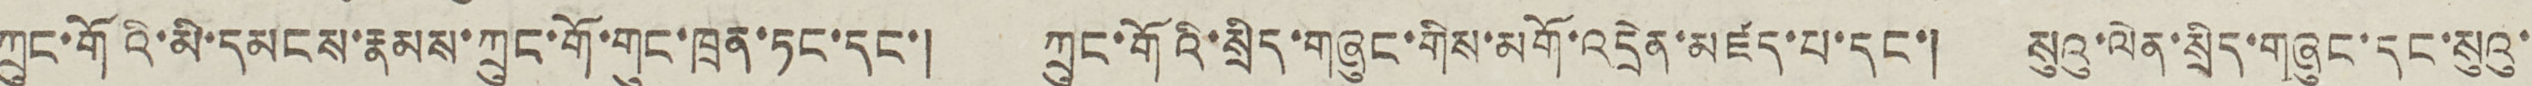ཀྲུང་གོའི་མི་དམངས་རྣམས་ཀྲུང་གོ་གུང་ཁྲན་ཏང་དང་། ཀྲུང་གོའི་སྲིད་གཞུང་གིས་མགོ་འདྲེན་མཛད་པ་དང་། སུའུ་ལེན་སྲིད་གཞུང་དང་སུའུ་
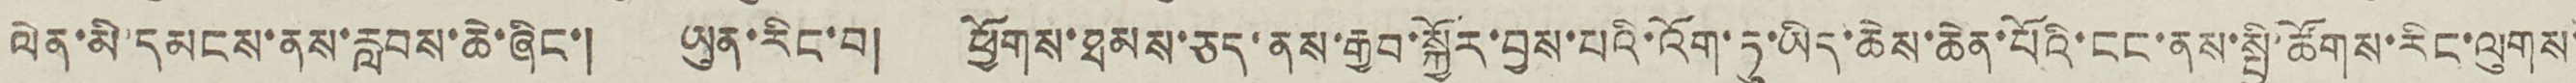ལེན་མི་དམངས་ནས་རླབས་ཆེ་ཞིང་། ཡུན་རིང་བ། ཕྱོགས་ཐམས་ཅད་ནས་རྒྱབ་སྐྱོར་བྱས་པའི་འོག་ཏུ་ཡོད་ཆེས་ཆེན་པོའི་ངང་ནས་སྤྱི་ཚོགས་རིང་ལུགས་
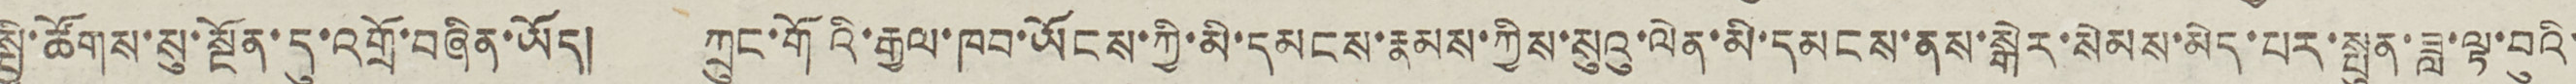སྤྱི་ཚོགས་སུ་སྔོན་དུ་འགྲོ་བཞིན་ཡོད། ཀྲུང་གོའི་རྒྱལ་ཁབ་ཡོངས་ཀྱི་མི་དམངས་རྣམས་ཀྱིས་སུའུ་ལེན་མི་དམངས་ནས་སྒེར་སེམས་མེད་པར་སྤུན་ཟླ་ལྟ་བུའི་
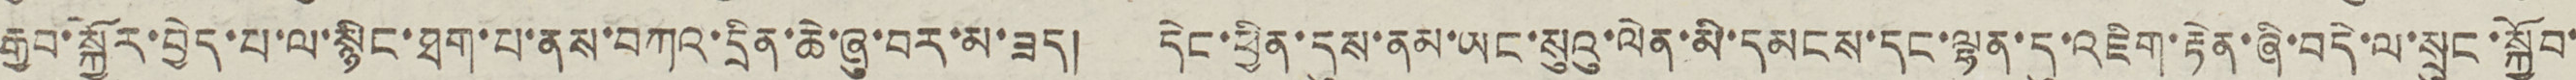རྒྱབ་སྐྱོར་བྱེད་པ་ལ་སྙིང་ཐག་པ་ནས་བཀའ་དྲིན་ཆེ་ཞུ་བར་མ་ཟད། དེང་ཕྱིན་དུས་ནམ་ཡང་སུའུ་ལེན་མི་དམངས་དང་ལྷན་དུ་འཇིག་རྟེན་ཞི་བདེ་ལ་སྲུང་སྐྱོབ་
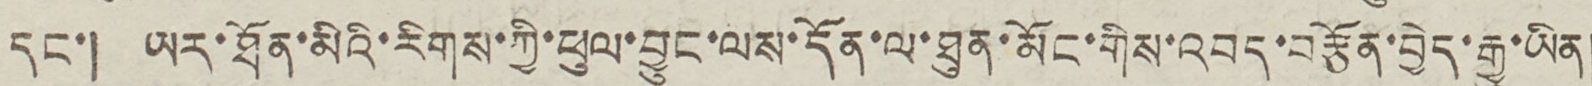དང་། ཡར་ཐོན་མིའི་རིགས་ཀྱི་ཕུལ་བྱུང་ལས་དོན་ལ་ཐུན་མོང་གིས་འབད་བརྩོན་བྱེད་རྒྱུ་ཡིན།
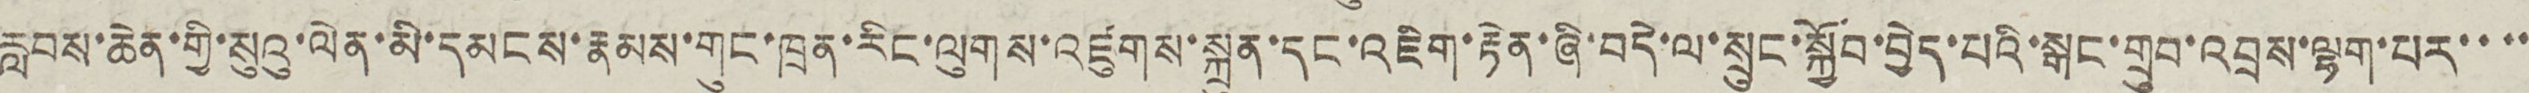རླབས་ཆེན་གྱི་སུའུ་ལེན་མི་དམངས་རྣམས་གུང་ཁྲན་རིང་ལུགས་འཛུགས་སྐྲུན་དང་འཇིག་རྟེན་ཞི་བདེ་ལ་སྲུང་སྐྱོབ་བྱེད་པའི་སྒང་གྲུབ་འབྲས་ལྷག་པར་་་་
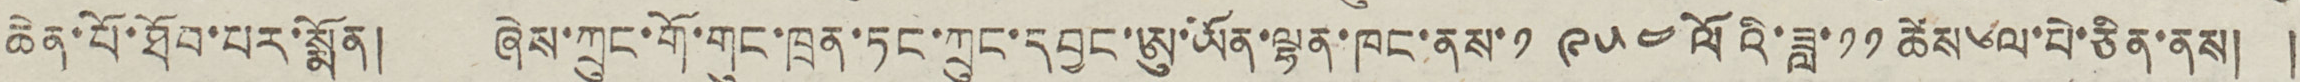ཆེན་པོ་ཐོབ་པར་སྨོན། ཞེས་ཀྲུང་གོ་གུང་ཁྲན་ཏང་ཀྲུང་དབྱང་ཨུ་ཡོན་ལྷན་ཁང་ནས་༡ ༩ ༥ ༤ ལོའི་ཟླ་༡༡ ཚེས༦ལ་པེ་ཅིན་ནས། །
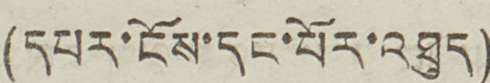(དཔར་ངོས་དང་པོར་འཐུད)
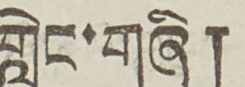གླེང་གཞི།
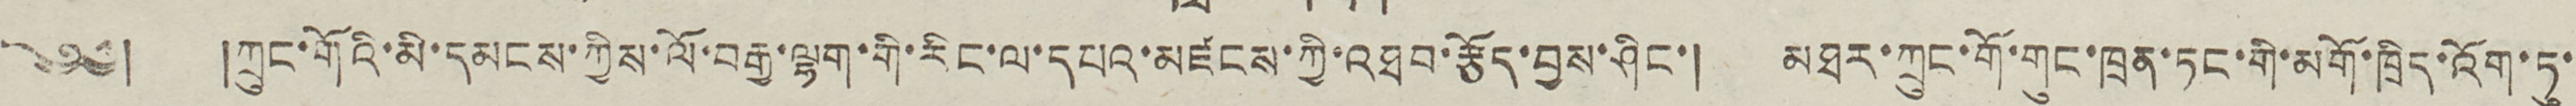༄༅། །ཀྲུང་གོའི་མི་དམངས་ཀྱིས་ལོ་བརྒྱ་ལྷག་གི་རིང་ལ་དཔའ་མཛངས་ཀྱི་འཐབ་རྩོད་བྱས་ཤིང་། མཐར་ཀྲུང་གོ་གུང་ཁྲན་ཏང་གི་མགོ་ཁྲིད་འོག་ཏུ་
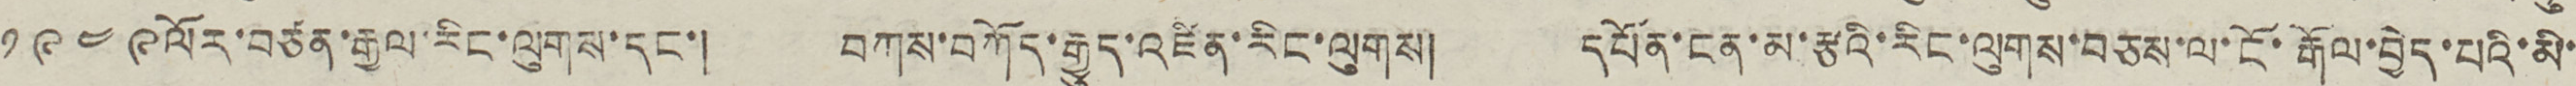༡ ༩ ༥ ༩ ལོར་བཙན་རྒྱལ་རིང་ལུགས་དང་། བཀས་བཀོད་རྒྱུད་འཛིན་རིང་ལུགས། དཔོན་ངན་མ་རྩའི་རིང་ལུགས་བཅས་ལ་ངོ་རྒོལ་བྱེད་པའི་མི་
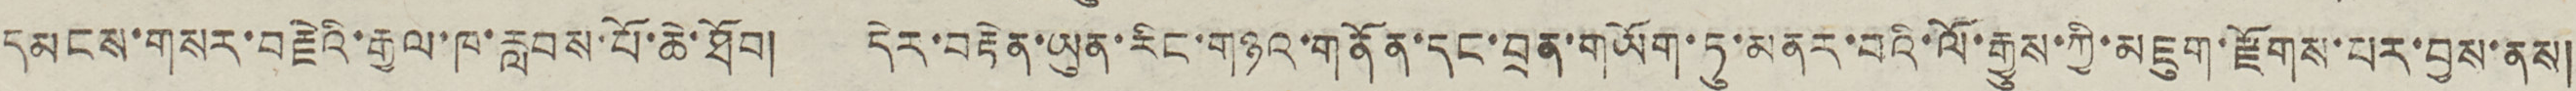དམངས་གསར་བརྗེའི་རྒྱལ་ཁ་རླབས་པོ་ཆེ་ཐོབ། དེར་བརྟེན་ཡུན་རིང་གཉའ་གནོན་དང་བྲན་གཡོག་ཏུ་མནར་བའི་ལོ་རྒྱུས་ཀྱི་མཇུག་རྫོགས་པར་བྱས་ནས།
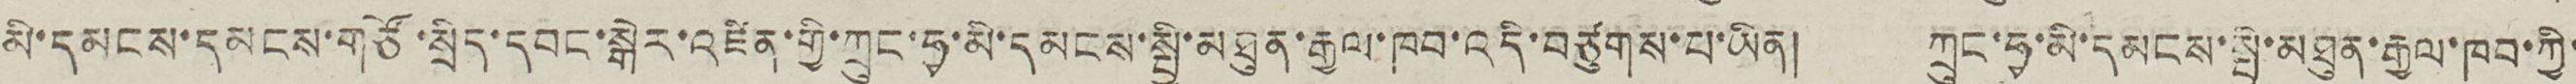མི་དམངས་དམངས་གཙོ་སྲིད་དབང་སྒེར་འཛིན་གྱི་ཀྲུང་ཧྭ་མི་དམངས་སྤྱི་མཐུན་རྒྱལ་ཁབ་འདི་བཙུགས་པ་ཡིན། ཀྲུང་ཧྭ་མི་དམངས་སྤྱི་མཐུན་རྒྱལ་ཁབ་ཀྱི་
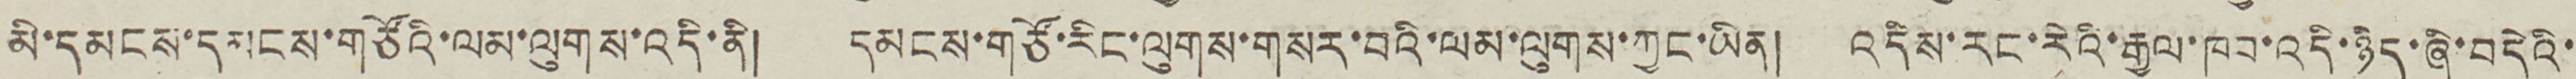མི་དམངས་དམངས་གཙོའི་ལམ་ལུགས་འདི་ནི། དམངས་གཙོ་རིང་ལུགས་གསར་བའི་ལམ་ལུགས་ཀྱང་ཡིན། འདིས་རང་རེའི་རྒྱལ་ཁབ་འདི་ཉིད་ཞི་བདེའི་
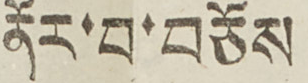ནོར་བ་བཅོས
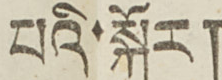པའི་སྐོར།
